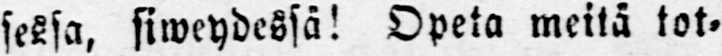sessa, siweydessä! Opeta meitä tot-
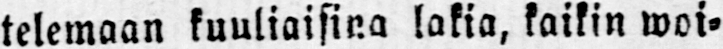telemaan kuuliaisina lakia, kaikin woi-
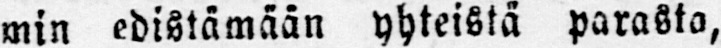min edistämään yhteistä parasta,
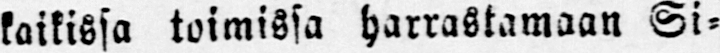kaikissa toimissa harrastamaan Si-
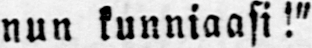nun kunniaasi!"
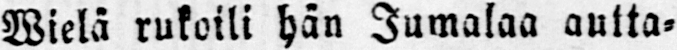Wielä rukoili hän Jumalaa autta-
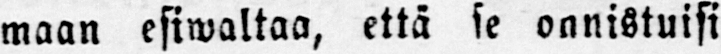maan esiwaltaa, että se onnistuisi
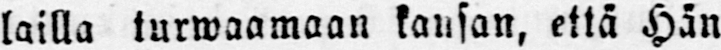lailla turwaamaan kansan, että Hän
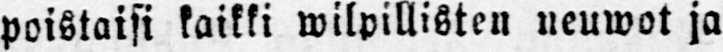poistaisi kaikki wilpillisten neuwot ja
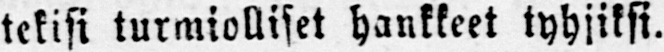tekisi turmiolliset hankkeet tyhjiksi.
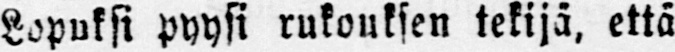Lopuksi pyysi rukouksen tekijä, että
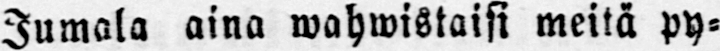Jumala aina wahwistaisi meitä py-
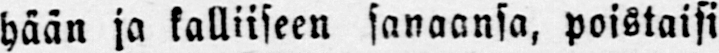hään ja kalliiseen sanaansa, poistaisi
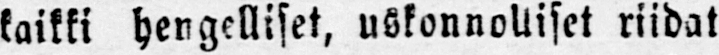kaikki hengelliset, uskonnolliset riidat
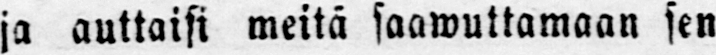ja auttaisi meitä saawuttamaan sen
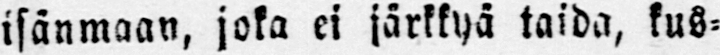isänmaan, joka ei järkkyä taida, kus-
